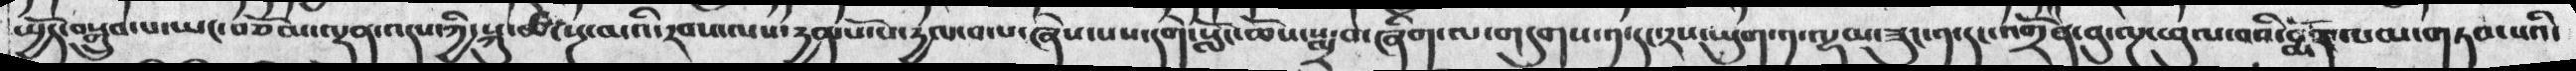སྤོད་བསྒྲུབ་པ་ཡང་བཅོལ་ལྡན་འདས་ཀྱི་སྐུ་ཚེ་སྔ་མའི་རབས་ལས་དྱན་པོ་པ་དྱལ་བ་པ་ཞེས་པས་དགེ་སློང་ཆོས་སྨྲ་བ་ཞིག་ལ་གདུགས་༡་དང་རས་ཡུག་༡་ལྡམ་ཟུང་༡་དང་འགྲོན་བུ་ལྔ་ཕུལ་བའི་སྨོན་ལམ་གཏབ་པའི་
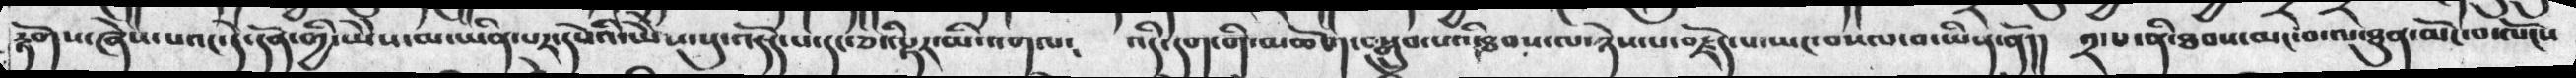རྟོགས་ཞེས་པའང་དེ་དོན་གྱི་ཡཻས་མ་ཡིན་པར་དཔེའི་ཡཻས་སུ་འདོད་པ་དང་ཅི་ལྟར་མི་འགལ༴ འདི་དག་གི་མཆོག་བསྒྲུབ་པའི་ཐབས་ལ་ཉེས་པ་བརྗོད་པ་ཡང་བསལ་བ་ཡིན་ནོ།། ༢་པ་ནི་ཐབས་མང་བ་ལ་ཐུན་མོང་བ་ལོངས
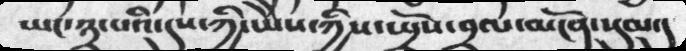ཡང་༣་པའི་དུས་ཀྱི་ཡེེས་ཀྱིས་ཡྲོས་བྲལ་མངོན་སུམ་དུ
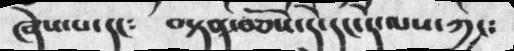ཞེས་པ་དང༴   བསྟན་བཅོས་དེ་དང་དེ་ལས་ཀྱང༴
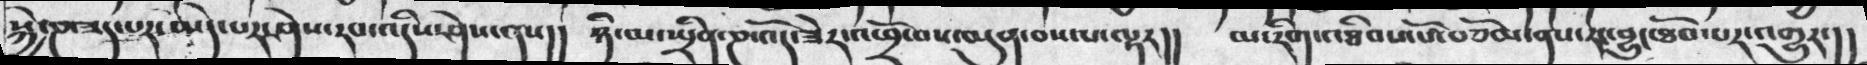སྐྱེ་ཎ་ཟད་པར་མེད་པར་ཤེས་རབ་འདིས་ཤེས་ནས།།  ཉི་མ་ཡྲིན་ཎ་འོད་ཟེར་འཕྲོ་བས་མུན་བསལ་པ་ལྟར།།  མ་རིགས་འཐིབས་པོ་བཅོམ་ནས་རང་བྱུང་ཐོབ་པར་འགྱུར་།།
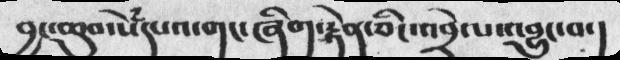བྱང་ཆུབ་སེཾདཔའ་གང་ཞིག་རྟེན་ཅིང་འབྲེལ་འབྱུང་བ་།
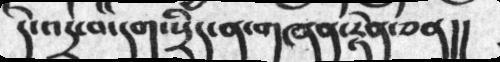དི་འདྲ་བ་དག་སྲིད་ན་གཞན་རྟེན་ཅན།།
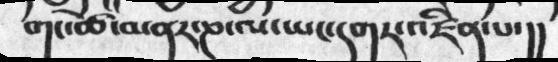གང་ཚེ་མནར་ཎ་ལ་ཡང་དགར་འཛིན་པ་།།
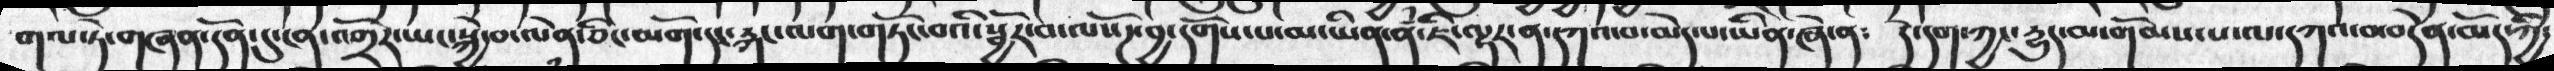གལ་ཏེ་གཞན་དོན་དུ་འགྲོར་ཡང་སྐྱེ་བ་ལེན་ཅིང་མགོ་དང་རྐང་ལག་གཏོང་བའི་སྦྱོར་བ་ལསོཌ་བྱ་དགོས་པ་མ་ཡིན་ནཾ་ཇི་ལྟར་ན་དཀའ་བ་མེད་པ་ཡིན་ཞེ་ན༴ དེ་དག་ཀྱང་རྱུད་མ་གོམས་པ་ལ་དཀའ་བ་བདེན་མོད་ཀྱི་
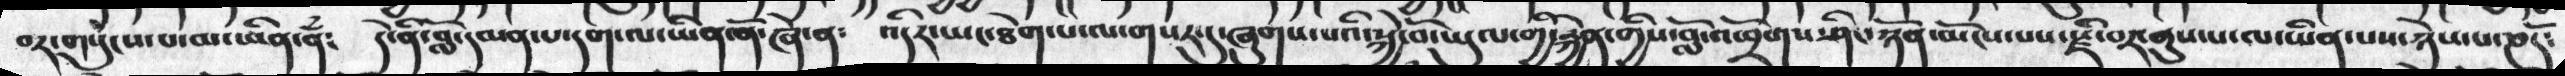བར་གསུངས་པ་མ་ཡིན་ནཾ༴ དེ་ནི་བློ་དམན་པ་དག་ལ་ཡིན་ནོ་ཞེ་ན༴ འདིར་ཡང་ཐེག་པ་ལ་གསར་དུ་ཞུགས་པའི་སྐྱེ་བོ་ཡུལ་གྱི་རྐྱེན་གྱིས་བློ་འཕྲོགས་ཤིང་ཉོན་མོངས་པས་སྫི་བར་ནུས་པ་ལ་ཡིན་པས་ཉེས་པ་ཎདོ༴
